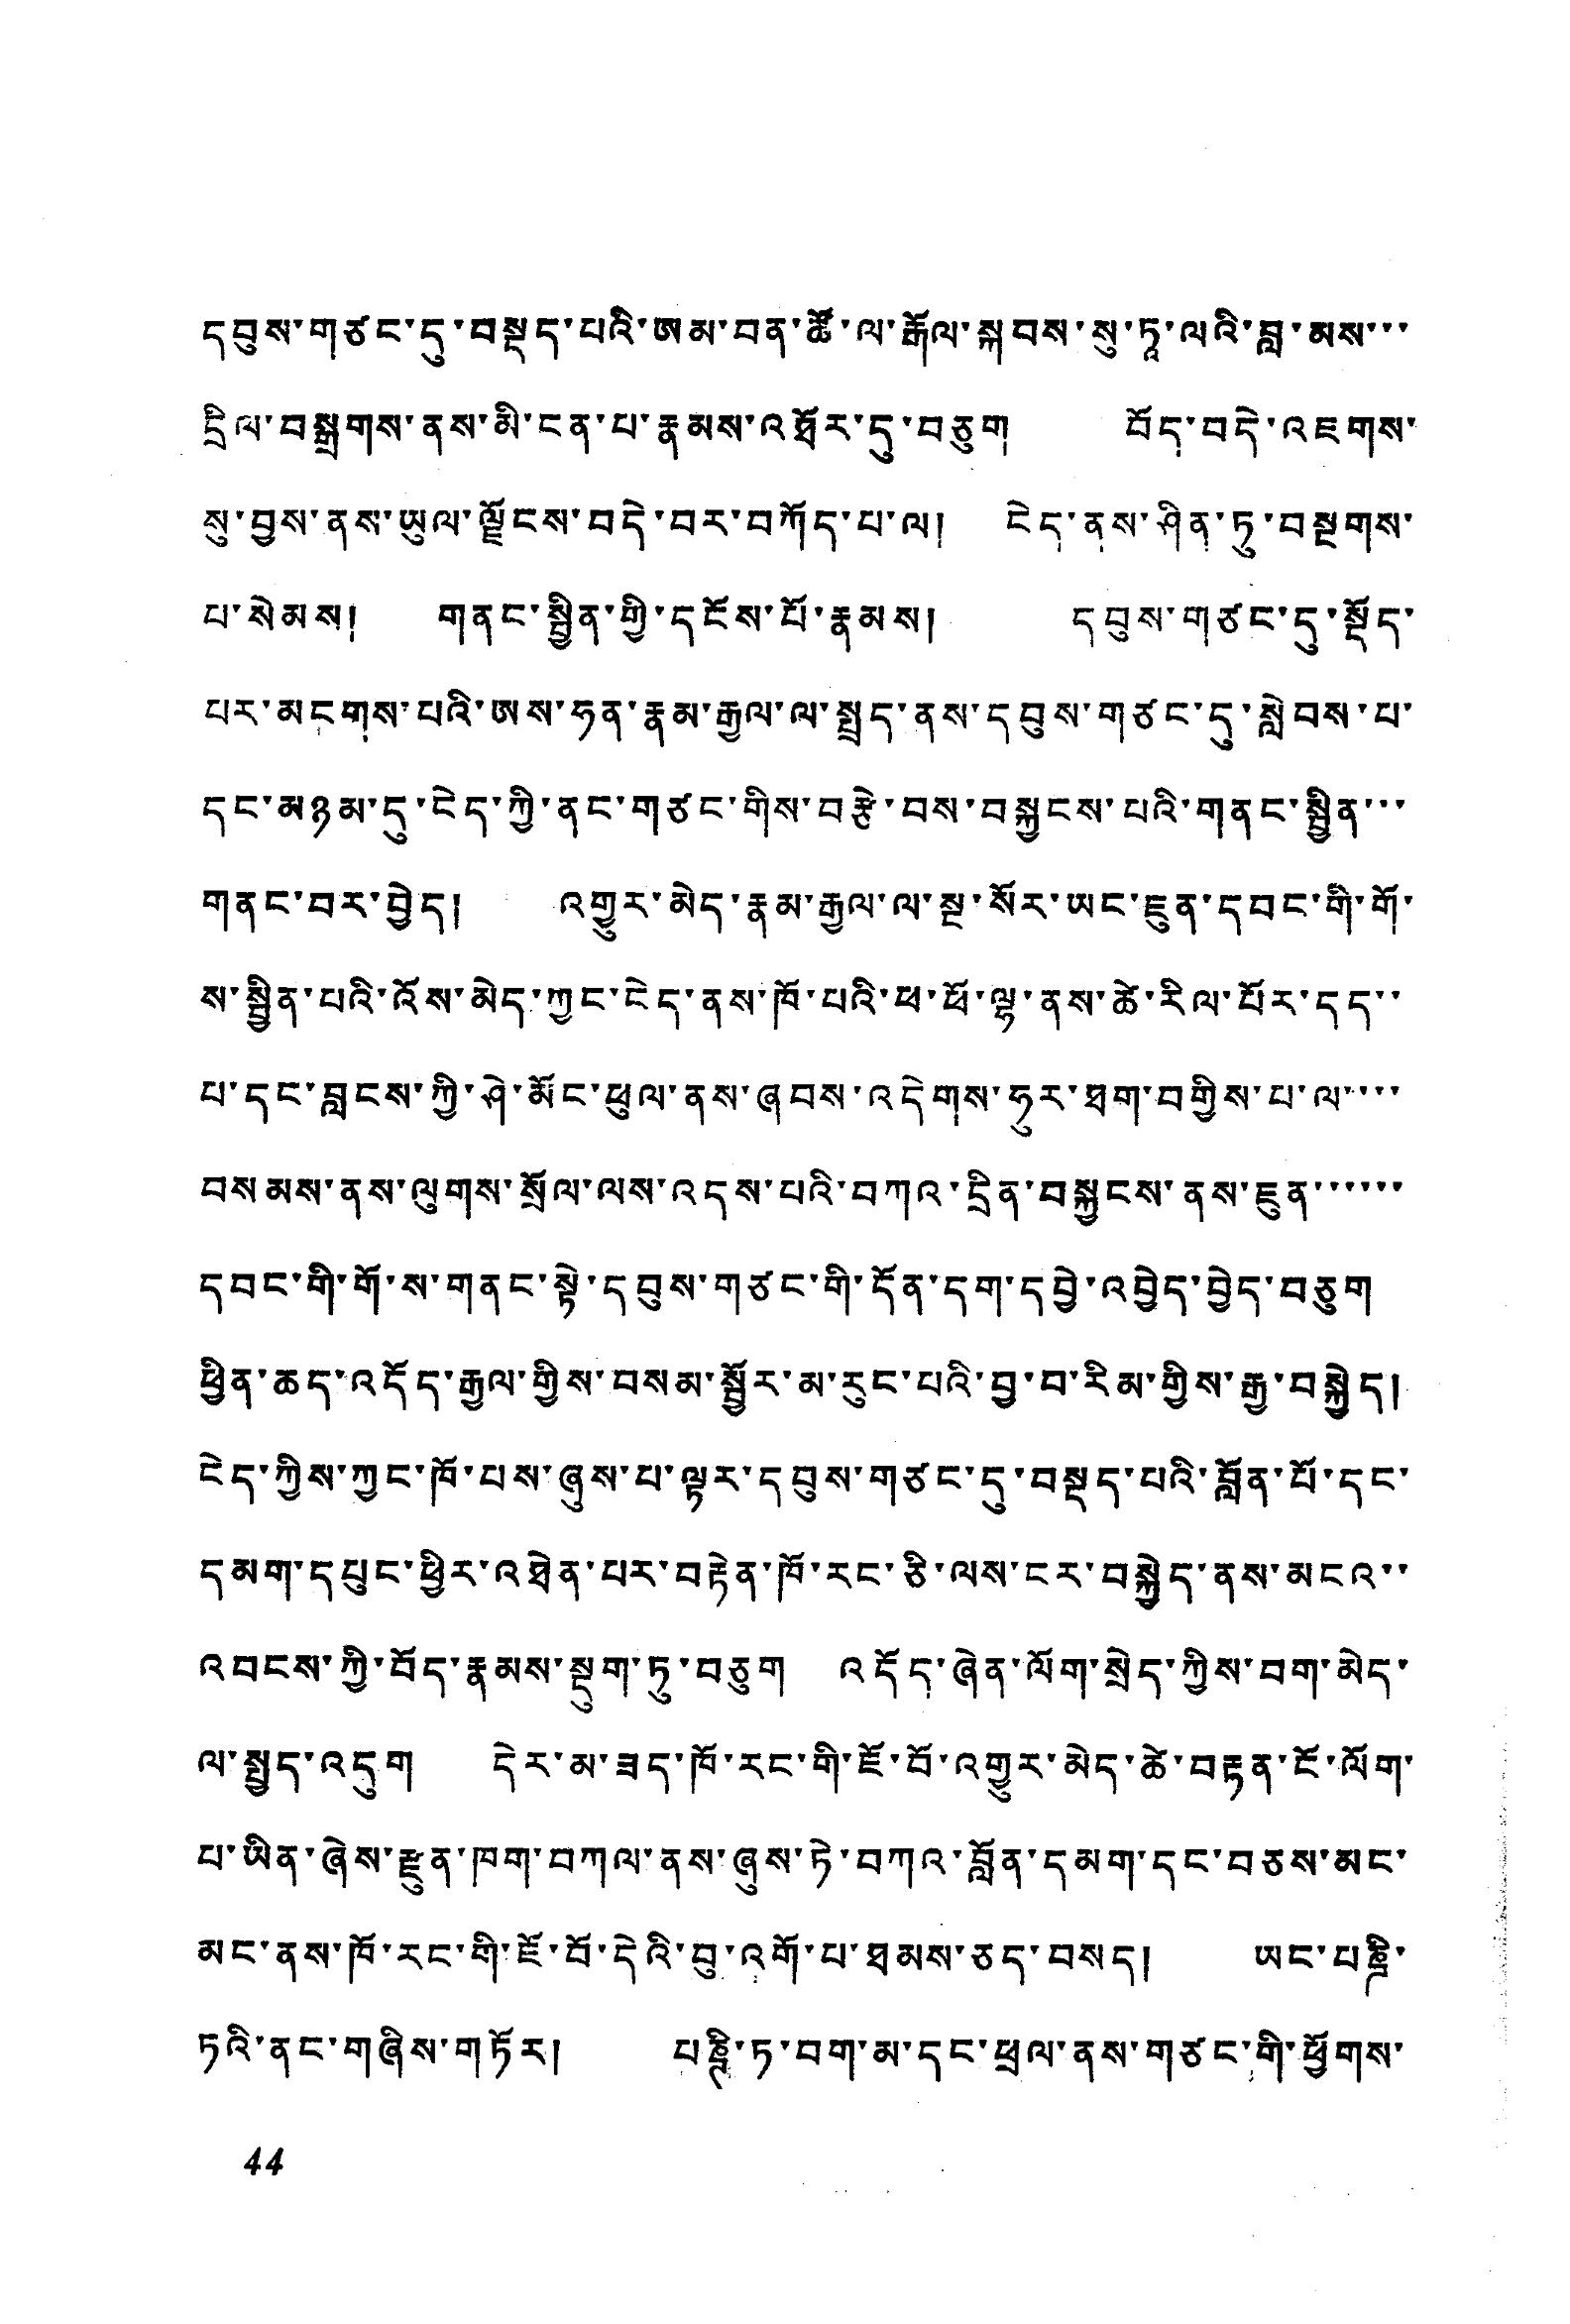དབུས་གཙང་དུ་བསྡད་པའི་ཨམ་བན་ཚོ་ལ་རྒོལ་སྐབས་སུ་ཏཱ་ལའི་བླ་མས་་་
དྲིལ་བསྒྲགས་ནས་མི་ངན་པ་རྣམས་འཐོར་དུ་བཅུག བོད་བདེ་འཇགས་
སུ་བྱས་ནས་ཡུལ་ལྗོངས་བདེ་བར་བཀོད་པ་ལ། ངེད་ནས་ཤིན་ཏུ་བསྔགས་
པ་སེམས། གནང་སྦྱིན་གྱི་དངོས་པོ་རྣམས། དབུས་གཙང་དུ་སྡོད་
པར་མངགས་པའི་ཨས་ཧན་རྣམ་རྒྱལ་ལ་སྤྲད་ནས་དབུས་གཙང་དུ་སླེབས་པ་
དང་མཉམ་དུ་ངེད་ཀྱི་ནང་གཙང་གིས་བརྩེ་བས་བསྐྱངས་པའི་གནང་སྦྱིན་་་
གནང་བར་བྱེད། འགྱུར་མེད་རྣམ་རྒྱལ་ལ་སྔ་སོར་ཡང་ཇུན་དབང་གི་གོ་
ས་སྦྱིན་པའི་འོས་མེད་ཀྱང་ངེད་ནས་ཁོ་པའི་ཕ་ཕོ་ལྷ་ནས་ཚེ་རིལ་པོར་དད་་
པ་དང་བླངས་ཀྱི་ཤེ་མོང་ཕུལ་ནས་ཞབས་འདེབས་ཧུར་ཐག་བགྱིས་པ་ལ་་་་
བསམས་ནས་ལུགས་སྲོལ་ལས་འདས་པའི་བཀའ་དྲིན་བསྐྱངས་ནས་ཇུན་་་་་་
དབང་གི་གོ་ས་གནང་སྟེ་དབུས་གཙང་གི་དོན་དག་དབྱེ་འབྱེད་བྱེད་བཅུག
ཕྱིན་ཆད་འདོད་རྒྱལ་གྱིས་བསམ་སྦྱོར་མ་རུང་པའི་བྱ་བ་རིམ་གྱིས་རྒྱ་བསྐྱེད།
ངེད་ཀྱིས་ཀྱང་ཁོ་པས་ཞུས་པ་ལྟར་དབུས་གཙང་དུ་བསྡད་པའི་བློན་པོ་དང་
དམག་དཔུང་ཕྱིར་འཐེན་པར་བརྟེན་ཁོ་རང་ཅི་ལས་ངར་བསྐྱེད་ནས་མངའ་་
འབངས་ཀྱི་བོད་རྣམས་སྡུག་ཏུ་བཅུག འདོད་ཞེན་ལོག་སྲེད་ཀྱིས་བག་མེད་
ལ་སྤྱད་འདུག དེར་མ་ཟད་ཁོ་རང་གི་ཇོ་བོ་འགྱུར་མེད་ཚེ་བརྟན་ངོ་ལོག་
པ་ཡིན་ཞེས་རྫུན་ཁག་བཀལ་ནས་ཞུས་ཏེ་བཀའ་བློན་དམག་དང་བཅས་མང་
མང་ནས་ཁོ་རང་གི་ཇོ་བོ་དེའི་བུ་འགོ་པ་ཐམས་ཅད་བསད། ཡང་པཎྜི་
ཏའི་ནང་གཞིས་གཏོར། པཎྚི་ཏ་བག་མ་དང་ཕྲལ་ནས་གཙང་གི་ཕྱོགས་
44
